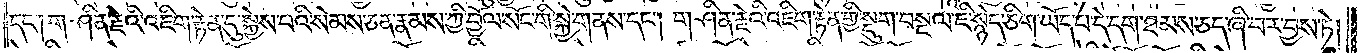དང༌། གཤིན་རྗེའི་འཇིག་རྟེན་དུ་སྐྱེས་པའི་སེམས་ཅན་རྣམས་ཀྱི་བྱོལ་སོང་གི་སྐྱེ་གནས་དང༌། གཤིན་རྗེའི་འཇིག་རྟེན་གྱི་སྡུག་བསྔལ་ཇི་སྙེད་ཅིག་ཡོད་པ་དེ་དག་ཐམས་ཅད་ཞི་བར་བྱས་ཏེ།
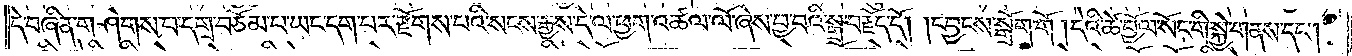དེ་བཞིན་གཤེགས་པ་དགྲ་བཅོམ་པ་ཡང་དག་པར་རྫོགས་པའི་སངས་རྒྱས་དེ་ལ་ཕྱག་འཚལ་ལོ་ཞེས་བྱ་བའི་སྒྲ་བརྗོད་དོ། །དབྱངས་སྒྲོག་གོ། དེའི་ཚེ་བྱོལ་སོང་གི་སྐྱེ་གནས་དང༌།
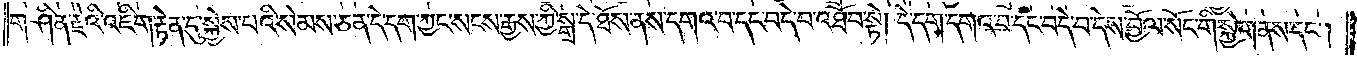གཤིན་རྗེའི་འཇིག་རྟེན་དུ་སྐྱེས་པའི་སེམས་ཅན་དེ་དག་ཀྱང་སངས་རྒྱས་ཀྱི་སྒྲ་དེ་ཐོས་ནས་དགའ་བ་དང་བདེ་བ་འཐོབ་སྟེ། དེ་དག་དགའ་བ་དང་བདེ་བ་དེས་བྱོལ་སོང་གི་སྐྱེ་གནས་དང༌།
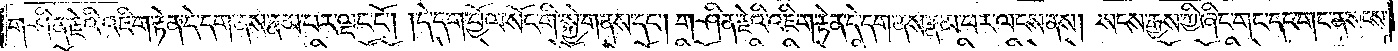གཤིན་རྗེའི་འཇིག་རྟེན་དེ་དག་ནས་རྣམ་པར་ལྡང་ངོ༌། །དེ་དག་བྱོལ་སོང་གི་སྐྱེ་གནས་དང༌། གཤིན་རྗེའི་འཇིག་རྟེན་དེ་དག་ནས་རྣམ་པར་ལངས་ནས། སངས་རྒྱས་ཀྱི་ཞིང་གང་དང་གང་ན་སངས་
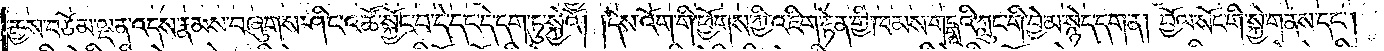རྒྱས་བཅོམ་ལྡན་འདས་རྣམས་བཞུགས་ཤིང་འཚོ་སྐྱོང་བ་དེ་དང་དེ་དག་ཏུ་སྐྱེའོ། །དེས་འོག་གི་ཕྱོགས་ཀྱི་འཇིག་རྟེན་གྱི་ཁམས་གངྒཱའི་ཀླུང་གི་བྱེ་མ་སྙེད་དག་ན། བྱོལ་སོང་གི་སྐྱེ་གནས་དང༌།
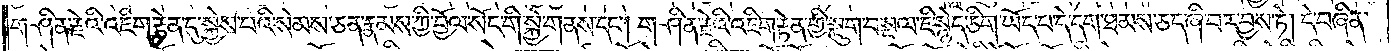གཤིན་རྗེའི་འཇིག་རྟེན་དུ་སྐྱེས་པའི་སེམས་ཅན་རྣམས་ཀྱི་བྱོལ་སོང་གི་སྐྱེ་གནས་དང༌། གཤིན་རྗེའི་འཇིག་རྟེན་གྱི་སྡུག་བསྔལ་ཇི་སྙེད་ཅིག་ཡོད་པ་དེ་དག་ཐམས་ཅད་ཞི་བར་བྱས་ཏེ། དེ་བཞིན་
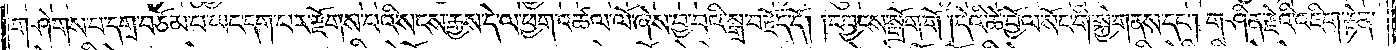གཤེགས་པ་དགྲ་བཅོམ་པ་ཡང་དག་པར་རྫོགས་པའི་སངས་རྒྱས་དེ་ལ་ཕྱག་འཚལ་ལོ་ཞེས་བྱ་བའི་སྒྲ་བརྗོད་དོ། །དབྱངས་སྒྲོག་གོ །དེའི་ཚེ་བྱོལ་སོང་གི་སྐྱེ་གནས་དང༌། གཤིན་རྗེའི་འཇིག་རྟེན་
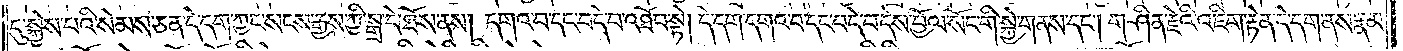དུ་སྐྱེས་པའི་སེམས་ཅན་དེ་དག་ཀྱང་སངས་རྒྱས་ཀྱི་སྒྲ་དེ་ཐོས་ནས། དགའ་བ་དང་བདེ་བ་འཐོབ་སྟེ། དེ་དག་དགའ་བ་དང་བདེ་བ་དེས་བྱོལ་སོང་གི་སྐྱེ་གནས་དང༌། གཤིན་རྗེའི་འཇིག་རྟེན་དེ་དག་ནས་རྣམ་
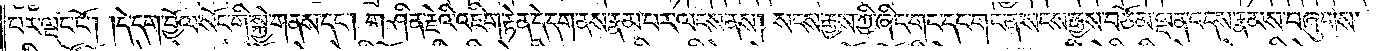པར་ལྡང་ངོ༌། །དེ་དག་བྱོལ་སོང་གི་སྐྱེ་གནས་དང༌། གཤིན་རྗེའི་འཇིག་རྟེན་དེ་དག་ནས་རྣམ་པར་ལངས་ནས། སངས་རྒྱས་ཀྱི་ཞིང་གང་དང་གང་ན་སངས་རྒྱས་བཅོམ་ལྡན་འདས་རྣམས་བཞུགས་
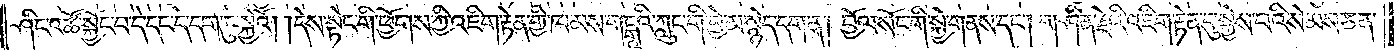ཤིང་འཚོ་སྐྱོང་བ་དེ་དང་དེ་དག་ཏུ་སྐྱེའོ། །དེས་སྟེང་གི་ཕྱོགས་ཀྱི་འཇིག་རྟེན་གྱི་ཁམས་གངྒཱའི་ཀླུང་གི་བྱེ་མ་སྙེད་དག་ན། བྱོལ་སོང་གི་སྐྱེ་གནས་དང༌། གཤིན་རྗེའི་འཇིག་རྟེན་དུ་སྐྱེས་པའི་སེམས་ཅན་
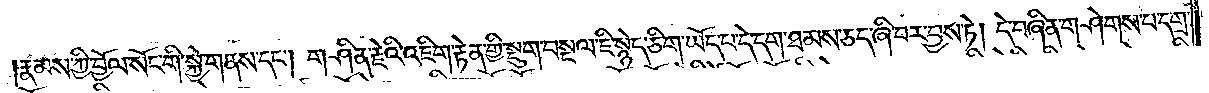རྣམས་ཀྱི་བྱོལ་སོང་གི་སྐྱེ་གནས་དང༌། གཤིན་རྗེའི་འཇིག་རྟེན་གྱི་སྡུག་བསྔལ་ཇི་སྙེད་ཅིག་ཡོད་པ་དེ་དག་ཐམས་ཅད་ཞི་བར་བྱས་ཏེ། དེ་བཞིན་གཤེགས་པ་དགྲ་
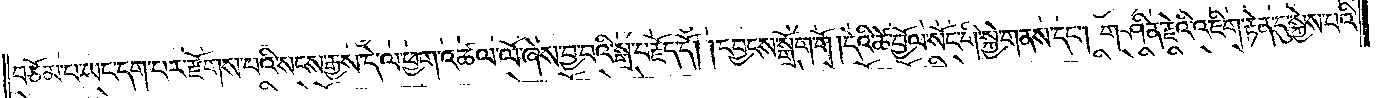བཅོམ་པ་ཡང་དག་པར་རྫོགས་པའི་སངས་རྒྱས་དེ་ལ་ཕྱག་འཚལ་ལོ་ཞེས་བྱ་བའི་སྒྲ་བརྗོད་དོ། །དབྱངས་སྒྲོག་གོ །དེའི་ཚེ་བྱོལ་སོང་གི་སྐྱེ་གནས་དང༌། གཤིན་རྗེའི་འཇིག་རྟེན་དུ་སྐྱེས་པའི་
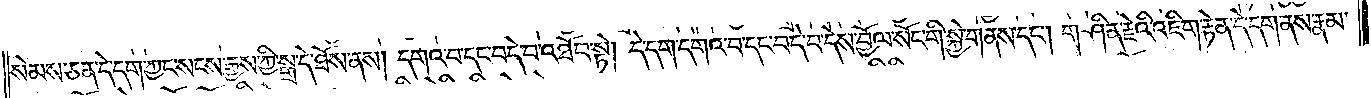སེམས་ཅན་དེ་དག་ཀྱང་སངས་རྒྱས་ཀྱི་སྒྲ་དེ་ཐོས་ནས། དགའ་བ་དང་བདེ་བ་འཐོབ་སྟེ། དེ་དག་དགའ་བ་དང་བདེ་བ་དེས་བྱོལ་སོང་གི་སྐྱེ་གནས་དང༌། གཤིན་རྗེའི་འཇིག་རྟེན་དེ་དག་ནས་རྣམ་
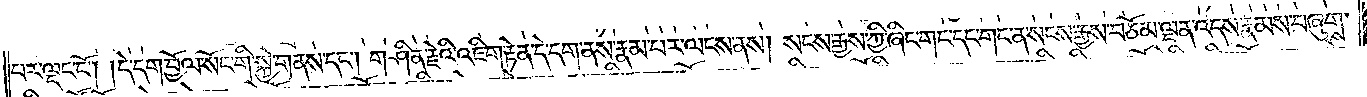པར་ལྡང་ངོ༌། །དེ་དག་བྱོལ་སོང་གི་སྐྱེ་གནས་དང༌། གཤིན་རྗེའི་འཇིག་རྟེན་དེ་དག་ནས་རྣམ་པར་ལངས་ནས། སངས་རྒྱས་ཀྱི་ཞིང་གང་དང་གང་ན་སངས་རྒྱས་བཅོམ་ལྡན་འདས་རྣམས་བཞུགས་
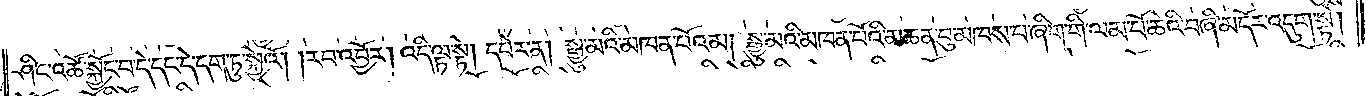ཤིང་འཚོ་སྐྱོང་བ་དེ་དང་དེ་དག་ཏུ་སྐྱེའོ། །རབ་འབྱོར། འདི་ལྟ་སྟེ། དཔེར་ན། སྒྱུ་མའི་མཁན་པོ་འམ། སྒྱུ་མའི་མཁན་པོའི་མཆན་བུ་མཁས་པ་ཞིག་གི་ལམ་པོ་ཆེའི་བཞི་མདོར་འདུག་སྟེ།
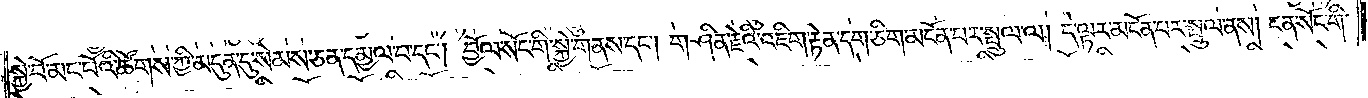སྐྱེ་བོ་མང་པོའི་ཚོགས་ཀྱི་མདུན་དུ་སེམས་ཅན་དམྱལ་བ་དང༌། བྱོལ་སོང་གི་སྐྱེ་གནས་དང༌། གཤིན་རྗེའི་འཇིག་རྟེན་དག་ཅིག་མངོན་པར་སྤྲུལ་ལ། དེ་ལྟར་མངོན་པར་སྤྲུལ་ནས། ངན་སོང་གི་
